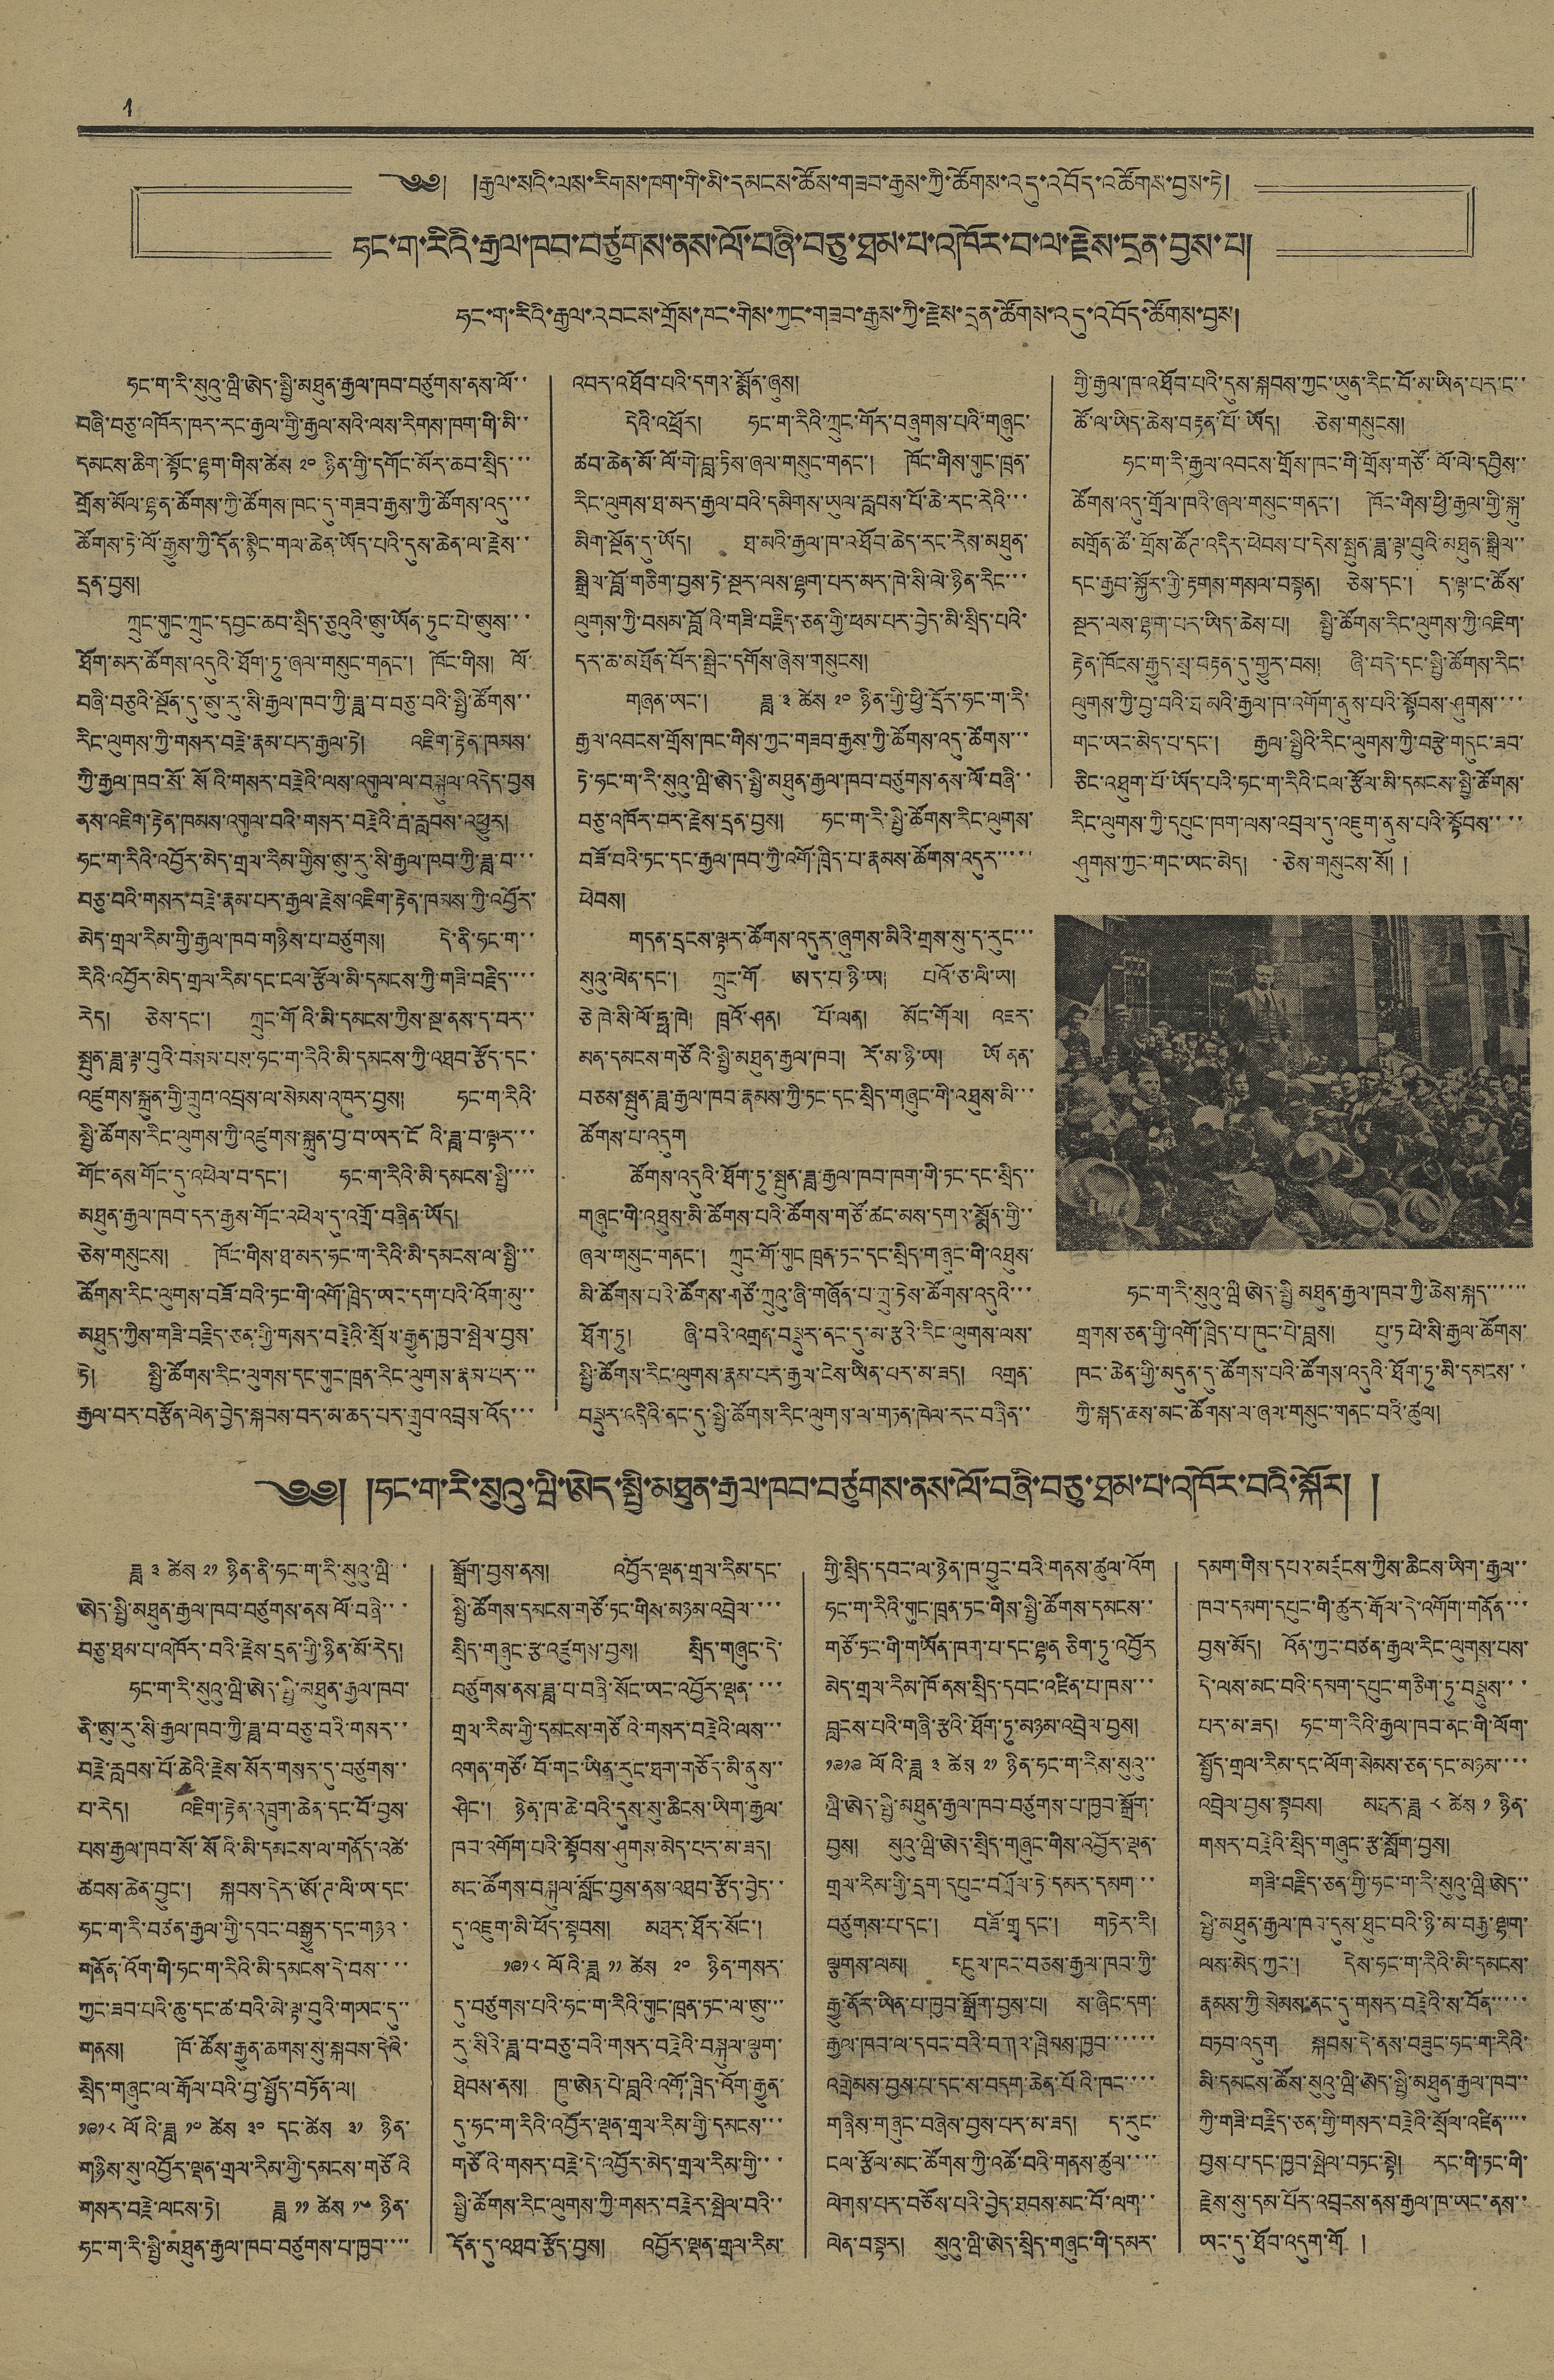4
༄༅། །རྒྱལ་སའི་ལས་རིགས་ཁག་གི་མི་དམངས་ཚོས་གཟབ་རྒྱས་ཀྱི་ཚོགས་འདུ་འབོད་འཚོགས་བྱས་ཏེ།
ཧང་ག་རིའི་རྒྱལ་ཁབ་བཙུགས་ནས་ལོ་བཞི་བཅུ་ཐམ་པ་འཁོར་བ་ལ་རྗེས་དྲན་བྱས་པ།
ཧང་ག་རིའི་རྒྱལ་འབངས་གྲོས་ཁང་གིས་ཀྱང་གཟབ་རྒྱས་ཀྱི་རྗེས་དྲན་ཚོགས་འདུ་འབོད་ཚོགས་བྱས།
ཧང་ག་རི་སུའུ་ཝི་ཨེད་སྤྱི་མཐུན་རྒྱལ་ཁབ་བཙུགས་ནས་ལོ་་
བཞི་བཅུ་འཁོར་ཁར་རང་རྒྱལ་གྱི་རྒྱལ་སའི་ལས་རིགས་ཁག་གི་མི་་
དམངས་ཆིག་སྟོང་ལྷག་གིས་ཚེས ༢༠ ཉིན་གྱི་དགོང་མོར་ཆབ་སྲིད་་་
གྲོས་མོལ་ལྷན་ཚོགས་ཀྱི་ཚོགས་ཁང་དུ་གཟབ་རྒྱས་ཀྱི་ཚོགས་འདུ་་་
ཚོགས་ཏེ་ལོ་རྒྱུས་ཀྱི་དོན་སྙིང་གལ་ཆེན་ཡོད་པའི་དུས་ཆེན་ལ་རྗེས་་
དྲན་བྱས།
ཀྲུང་གུང་ཀྲུང་དབྱང་ཆབ་སྲིད་ཅུའུའི་ཨུ་ཡོན་ཏུང་པེ་ཨུས་་་
ཐོག་མར་ཚོགས་འདུའི་ཐོག་ཏུ་ཞལ་གསུང་གནང་། ཁོང་གིས། ལོ་
བཞི་བཅུའི་སྔོན་དུ་ཨུ་རུ་སི་རྒྱལ་ཁབ་ཀྱི་ཟླ་བ་བཅུ་བའི་སྤྱི་ཚོགས་་
རིང་ལུགས་ཀྱི་གསར་བརྗེ་རྣམ་པར་རྒྱལ་ཏེ། འཇིག་རྟེན་ཁམས་
ཀྱི་རྒྱལ་ཁབ་སོ་སོའི་གསར་བརྗེའི་ལས་འགུལ་ལ་བསྐུལ་འདེད་བས
ནས་འཇིག་རྟེན་ཁམས་འགུལ་བའི་གསར་བརྗེའི་རྦ་རླབས་འཕྱུར།
ཧང་ག་རིའི་འབྱོར་མེད་གྲལ་རིམ་གྱིས་ཨུ་རུ་སི་རྒྱལ་ཁབ་ཀྱི་ཟླ་བ་་་
བཅུ་བའི་གསར་བརྗེ་རྣམ་པར་རྒྱལ་རྗེས་འཇིག་རྟེན་ཁམས་ཀྱི་འབྱོར་
མེད་གྲལ་རིམ་གྱི་རྒྱལ་ཁབ་གཉིས་པ་བཙུགས། དེ་ནི་ཧང་ག་་
རིའི་འབྱོར་མེད་གྲལ་རིམ་དང་ངལ་རྩོལ་མི་དམངས་ཀྱི་གཟི་བརྗིད་་་་
རེད། ཅེས་དང་། ཀྲུང་གོའི་མི་དམངས་ཀྱིས་སྔ་ནས་ད་བར་་
སྤུན་ཟླ་ལྟ་བུའི་བསམ་པས་ཧང་ག་རིའི་མི་དམངས་ཀྱི་འཐབ་རྩོད་དང་
འཛུགས་སྐྲུན་གྱི་གྲུབ་འབྲས་ལ་སེམས་འཁུར་བྱས། ཧང་ག་རིའི་
སྤྱི་ཚོགས་རིང་ལུགས་ཀྱི་འཛུགས་སྐྲུན་བྱ་བ་ཡར་ངོའི་ཟླ་བ་ལྟར་་་
གོང་ནས་གོང་དུ་འཕེལ་བ་དང་། ཧང་ག་རིའི་མི་དམངས་སྤྱི་་་་
མཐུན་རྒྱལ་ཁབ་དར་རྒྱས་གོང་འཕེལ་དུ་འགྲོ་བཞིན་ཡོད།
ཅེས་གསུངས། ཁོང་གིས་ཐ་མར་ཧང་ག་རིའི་མི་དམངས་ལ་སྤྱི་་་
ཚོགས་རིང་ལུགས་བཟོ་བའི་ཏང་གི་འགོ་ཁྲིད་ཡང་དག་པའི་འོག་མུ་་
མཐུད་ཀྱིས་གཟི་བརྗིད་ཅན་གྱི་གསར་བརྗེའི་སྲོལ་རྒྱུན་ཁྱབ་སྤེལ་བྱས་
ཏེ། སྤྱི་ཚོགས་རིང་ལུགས་དང་གུང་ཁྲན་རིང་ལུགས་རྣམ་པར་་
རྒྱལ་བར་བརྩོན་ལེན་བྱད་སྐབས་བར་མ་ཆད་པར་གྲུབ་འབྲས་འོད་་་
འབར་འཐོབ་པའི་དགའ་སྨོན་ཞུས།
དེའི་འཕྲོར། ཧང་ག་རིའི་ཀྲུང་གོར་བཞུགས་པའི་གཞུང་
ཚབ་ཆེན་མོ་ལོ་གེ་བླ་ཏིས་ཞལ་གསུང་གནང་། ཁོང་གིས་གུང་ཁྲན་
རིང་ལུགས་ཐ་མར་རྒྱལ་བའི་དམིགས་ཡུལ་རླབས་པོ་ཆེ་རང་རེའི་་་
མིག་སྔོན་དུ་ཡོད། ཐ་མའི་རྒྱལ་ཁ་འཐོབ་ཆེད་རང་རེས་མཐུན་
སྒྲིལ་བློ་གཅིག་བྱས་ཏེ་སྔར་ལས་ལྷག་པར་མར་ཁེ་སི་ལེ་ཉིན་རིང་་་
ལུགས་ཀྱི་བསམ་བློའི་གཟི་བརྗིད་ཅན་གྱི་ཕམ་པར་བྱེད་མི་སྲིད་པའི་
དར་ཆ་མཐོན་པོར་སྒྲེང་དགོས་ཞེས་གསུངས།
གཞན་ཡང་། ཟླ ༣ ཚེས ༡༠ ཉིན་གྱི་ཕྱི་དྲོར་ཧང་ག་རི་
རྒྱལ་འབངས་གྲོས་ཁང་གིས་ཀྱང་གཟབ་རྒྱས་ཀྱི་ཚོགས་འདུ་ཚོགས་་་
ཏེ་ཧང་ག་རི་སུའུ་ཝི་ཨེད་སྤྱི་མཐུན་རྒྱལ་ཁབ་བཙུགས་ནས་ལོ་བཞི་་
བཅུ་འཁོར་བར་རྗེས་དྲན་བྱས། ཧང་ག་རི་སྤྱི་ཚོགས་རིང་ལུགས་
བཟོ་བའི་ཏང་དང་རྒྱལ་ཁབ་ཀྱི་འགོ་ཁྲིད་པ་རྣམས་ཚོགས་འདུར་་་་་
ཕེབས།
གདན་དྲངས་ལྟར་ཚོགས་འདུར་ཞུགས་མིའི་གྲས་སུ་ད་རུང་་་
སུའུ་ལེན་དང་། ཀྲུང་གོ ཨར་པ་ཉི་ཡ། པའོ་ཅ་ལི་ཡ།
ཅེ ཁེ་སི་ལོ་ཧྥ་ཁེ། ཁྲའོ་ཤན། པོ་ལན། མོང་གོལ། འཇར་
མན་དམངས་གཙོའི་སྤྱི་མཐུན་རྒྱལ་ཁབ། རོ་མ་ཉི་ཡ། ཡོ ནན་
བཅས་སྤུན་ཟླ་རྒྱལ་ཁབ་རྣམས་ཀྱི་ཏང་དང་སྲིད་གཞུང་གི་འཐུས་མི་་་
ཚོགས་པ་འདུག
ཚོགས་འདུའི་ཐོག་ཏུ་སྤུན་ཟླ་རྒྱལ་ཁབ་ཁག་གི་ཏང་དང་སྲིད་་
གཞུང་གི་འཐུས་མི་ཚོགས་པའི་ཚོགས་གཙོ་ཚང་མས་དགའ་སྨོན་གྱི་་
ཞལ་གསུང་གནང་། ཀྲུང་གོ་གུང ཁྲན་ཏང་དང་སྲིད་གཞུང་གི་འཐུས་
མི་ཚོགས་པའི་ཚོགས་གཙོ་ཀྲུའུ་ཞི་གཞོན་པ་ཀྲུ་ཏེས་ཚོགས་འདུའི་་་
ཐོག་ཏུ། ཞི་བའི་འགྲན་བསྡུར་ནང་དུ་མ་རྩའི་རིང་ལུགས་ལས་
སྤྱི་ཚོགས་རིང་ལུགས་རྣམ་པར་རྒྱལ་ངེས་ཡིན་པར་མ་ཟད། འགྲན་
བསྡུར་འདིའི་ནང་དུ་སྤྱི་ཚོགས་རིང་ལུགས་ལ་གཏན་ཁེལ་རང་བཞིན་་
གྱི་རྒྱལ་ཁ་འཐོབ་པའི་དུས་སྐབས་ཀྱང་ཡུན་རིང་བོ་མ་ཡིན་པར་ང་་
ཚོ་ལ་ཡིད་ཆེས་བརྟན་པོ་ཡོད། ཅེས་གསུངས།
ཧང་ག་རི་རྒྱལ་འབངས་གྲོས་ཁང་གི་གྲོས་གཙོ་ལོ་ལེ་དབྱིས་་
ཚོགས་འདུ་གྲོལ་ཁའི་ཞལ་གསུང་གནང་། ཁོང་གིས་ཕྱི་རྒྱལ་གྱི་སྐུ་
མགྲོན་ཚོ་གྲོས་ཚོཊ་འདིར་ཕེབས་པ་དེས་སྤུན་ཟླ་ལྟ་བུའི་མཐུན་སྒྲིལ་་
དང་རྒྱལ་སྐྱོར་གྱི་རྟགས་གསལ་བསྟན། ཅེས་དང་། ད་ལྟ་ང་ཚོས་
སྔར་ལས་ལྷག་པར་ཡིད་ཆེས་པ། སྤྱི་ཚོགས་རིང་ལུགས་ཀྱི་འཇིག་
རྟེན་ཁོངས་རྒྱུད་སྲ་བརྟན་དུ་གྱུར་བས། ཞི་བདེ་དང་སྤྱི་ཚོགས་རིང་
ལུགས་ཀྱི་བྱ་བའི་ཐ་མའི་རྒྱལ་ཁ་འགོག་ནུས་པའི་སྟོབས་ཤུགས་་་་
གང་ཡང་མེད་པ་དང་། རྒྱལ་སྤྱིའི་རིང་ལུགས་ཀྱི་བརྩེ་གདུང་ཟབ་
ཅིང་འཐུག་པོ་ཡོད་པའི་ཧང་ག་རིའི་ངལ་རྩོལ་མི་དམངས་སྤྱི་ཚོགས་
རིང་ལུགས་ཀྱི་དཔུང་ཁག་ལས་འབྲལ་དུ་འཇུག་ནུས་པའི་སྟོབས་་་་
ཤུགས་ཀྱང་གང་ཡང་མེད། ཅེས་གསུངས་སོ། །
ཧང་ག་རི་སུའུ་ཝི ཨེད་སྤྱི་མཐུན་རྒྱལ་ཁབ་ཀྱི་ཆེས་སྐད་་་་་་
གྲགས་ཅན་གྱི་འགོ་ཁྲིད་པ་ཁུང་པེ་བླས། པུ་ཏ་ཕེ་སི་རྒྱལ་ཚོགས་
ཁང་ཆེན་གྱི་མདུན་དུ་ཚོགས་པའི་ཚོགས་འདུའི་ཐོག་ཏུ་མི་དམངས་་
ཀྱི་སྐད་ཆས་མང་ཚོགས་ལ་ཞལ་གསུང་གནང་བའི་ཚུལ།
༄༅། །ཧང་ག་རི་སུའུ་ཝི་ཨེད་སྤྱི་མཐུན་རྒྱལ་ཁབ་བཙུགས་ནས་ལོ་བཞི་བཅུ་ཐམ་པ་འཁོར་བའི་སྐོར། །
ཟླ ༣ ཚེས ༢༡ ཉིན་ནི་ཧང་ག་རི་སུའུ་ཝི་་
ཨེད་སྤྱི་མཐུན་རྒྱལ་ཁབ་བཙུགས་ནས་ལོ་བཞི་་་
བཅུ་ཐམ་པ་འཁོར་བའི་རྗེས་དྲན་གྱི་ཉིན་མོ་རེད།
ཧང་ག་རི་སུའུ་ཝི་ཨེད་སྤྱི་མཐུན་རྒྱལ་ཁབ་
ནི་ཨུ་རུ་སི་རྒྱལ་ཁབ་ཀྱི་ཟླ་བ་བཅུ་བའི་གསར་་
བརྗེ་རླབས་པོ་ཆེའི་རྗེས་སོར་གསར་དུ་བཙུགས་་
པ་རེད། འཇིག་རྟེན་འཁྲུག་ཆེན་དང་བོ་བྱས་
པས་རྒྱལ་ཁབ་སོ་སོའི་མི་དམངས་ལ་གནོད་འཚེ་
ཚབས་ཆེན་བྱུང་། སྐབས་དེར་ཨོ་ཊ་ལི་ཡ་དང་
ཧང་ག་རི་བཙན་རྒྱལ་གྱི་དབང་བསྒྱུར་དང་གཉའ་
གནོན་འོག་གི་ཧང་ག་རིའི་མི་དམངས་དེ་བས་་་་
ཀྱང་ཟབ་པའི་ཆུ་དང་ཚ་བའི་མེ་ལྟ་བུའི་གཡང་དུ་་
གནས། ཁོ་ཚོས་རྒྱུན་ཆགས་སུ་སྐབས་དེའི་
སྲིད་གཞུང་ལ་རྒོལ་བའི་བྱ་སྤྱོད་བཏོན་ལ།
༡༩༡༨ ལོའི་ཟླ ༡༠ ཚེས ༣༠ དང་ཚེས ༣༡ ཉིན་
གཉིས་སུ་འབྱོར་ལྡན་གྲ་རིམ་གྱི་དམངས་གཙོའི་
གསར་བརྗེ་ལངས་ཏེ། ཟླ ༡༡ ཚེས ༡༦ ཉིན་
ཧང་ག་རི་སྤྱི་མཐུན་རྒྱལ་ཁབ་བཙུགས་པ་ཁྱབ་་་་
སྒྲོག་བྱས་ནས། འབྱོར་ལྡན་གྲལ་རིམ་དང་
སྤྱི་ཚོགས་དམངས་གཙོ་ཏང་གིས་མཉམ་འབྲེལ་་་་
སྲིད་གཞུང་རྩ་འཛུགས་བྱས། སྲིད་གཞུང་དེ་
བཙུགས་ནས་ཟླ་བ་བཞི་སོང་ཡང་འབྱོར་ལྡན་་་་
གྲལ་རིམ་གྱི་དམངས་གཙོའི་གསར་བརྗེའི་ལས་་་
འགན་གཙོ་བོ་གང་ཡིན་རུང་ཐག་གཅོད་མི་ནུས་་
ཤིང་། ཉེན་ཁ་ཆེ་བའི་དུས་སུ་ཆིངས་ཡིག་རྒྱལ་
ཁབ་འགོག་པའི་སྟོབས་ཤུགས་མེད་པར་མ་ཟད།
མང་ཚོགས་བསྐུལ་སློང་བྱས་ནས་འཐབ་རྩོད་བྱེད་་
དུ་འཇུག་མི་ཕོད་སྟབས། མཐར་ཐོར་སོང་།
༡༩༡༨ ལོའི་ཟླ ༡༡ ཚེས ༡༠ ཉིན་གསར་
དུ་བཙུགས་པའི་ཧང་ག་རིའི་གུང་ཁྲན་ཏང་ལ་ཨུ་་་
རུ་སིའི་ཟླ་བ་བཅུ་བའི་གསར་བརྗེའི་བསྐུལ་ལྕག་
ཐེབས་ནས། ཁུ་ཨེན་པེ་བླའི་འགོ་ཁྲིད་འོག་རྒྱུན་
དུ་ཧང་ག་རིའི་འབྱོར་ལྡན་གྲལ་རིམ་གྱི་དམངས་་་
གཙོའི་གསར་བརྗེ་དེ་འབྱོར་མེད་གྲལ་རིམ་གྱི་་་
སྤྱི་ཚོགས་རིང་ལུགས་ཀྱི་གསར་བརྗེར་སྤེལ་བའི་་
དོན་དུ་འཐབ་རྩོད་བྱས། འབྱོར་ལྡན་གྲལ་རིམ་
གྱི་སྲིད་དབང་ལ་ཉེན་ཁ་བྱུང་བའི་གནས་ཚུལ་འོག
ཧང་ག་རིའི་གུང་ཁྲན་ཏང་གིས་སྤྱི་ཚོགས་དམངས་་
གཙོ་ཏང་གི་གཡོན་ཁག་པ་དང་ལྷན་ཅིག་ཏུ་འབྱོར
མེད་གྲལ་རིམ་ཁོ་ནས་སྲིད་དབང་འཛིན་པ་ཁས་་་
བླངས་པའི་གཞི་རྩའི་ཐོག་ཏུ་མཉམ་འབྲེལ་བྱས།
༡༩༡༩ ལོའི་ཟླ ༣ ཚེས ༢༡ ཉིན་ཧང་ག་རིས་སུའུ་་
ཝི་ཨེད་སྤྱི་མཐུན་རྒྱལ་ཁབ་བཙུགས་པ་ཁྱབ་སྒྲོག་
བྱས། སུའུ་ཝི་ཨེད་སྲིད་གཞུང་གིས་འབྱོར་ལྡན་
གྲལ་རིམ་གྱི་དྲག་དཔུང་བགྲོལ་ཏེ་དམར་དམག་་
བཙུགས་པ་དང་། བཟོ་གྲྭ་དང་། གཏེར་རི།
ལྕགས་ལམ། དངུལ་ཁང་བཅས་རྒྱལ་ཁབ་ཀྱི་
རྒྱུ་ནོར་ཡིན་པ་ཁྱབ་སྒྲོག་བྱས་པ། ས་ཞིང་དག་
རྒྱལ་ཁབ་ལ་དབང་བའི་བཀའ་ཁྲིམས་ཁྱབ་་་་་་
འགྲེམས་བྱས་པ་དང་ས་བདག་ཆེན་པོའི་ཁང་་་་
གཞིས་གཞུང་བཞེས་བྱས་པར་མ་ཟད། ད་རུང་
ངལ་རྩོལ་མང་ཚོགས་ཀྱི་འཚོ་བའི་གནས་ཚུལ་་་་
ལེགས་པར་བཅོས་པའི་བྱེད་ཐབས་མང་བོ་ལག་་
ལེན་བསྟར། སུའུ་ཝི་ཨེད་སྲིད་གཞུང་གི་དམར་
དམག་གིས་དཔའ་མཛངས་ཀྱིས་ཆིངས་ཡིག་རྒྱལ་་
ཁབ་དམག་དཔུང་གི་ཚུར་རྒོལ་དེ་འགོག་གནོན་་་
བྱས་མོད། འོན་ཀྱང་བཙན་རྒྱལ་རིང་ལུགས་པས་
དེ་ལས་མང་བའི་དམག་དཔུང་གཅིག་ཏུ་བསྡུས་་་
པར་མ་ཟད། ཧང་ག་རིའི་རྒྱལ་ཁབ་ནང་གི་ལོག་
སྤྱོད་གྲལ་རིམ་དང་ལོག་སེམས་ཅན་དང་མཉམ་་་་
འབྲེལ་བྱས་སྟབས། མཐར་ཟླ ༨ ཚེས ༡ ཉིན་
གསར་བརྗེའི་སྲིད་གཞུང་རྩ་སློག་བྱས།
གཟི་བརྗིད་ཅན་གྱི་ཧང་ག་རི་སུའུ་ཝི་ཨེད་་
སྤྱི་མཐུན་རྒྱལ་ཁབ་དུས་ཐུང་བའི་ཉི་མ་བརྒྱ་ལྷག་
ལས་མེད་ཀྱང་། དེས་ཧང་ག་རིའི་མི་དམངས་
རྣམས་ཀྱི སེམས་ནང་དུ་གསར་བརྗེའི་ས་བོན་་་་་
བཏབ་འདུག སྐབས་དེ་ནས་བཟུང་ཧང་ག་རིའི་
མི་དམངས་ཚོས་སུའུ་ཝི་ཨེད་སྤྱི་མཐུན་རྒྱལ་ཁབ་་
ཀྱི་གཟི་བརྗིད་ཅན་གྱི་གསར་བརྗེའི་སྲོལ་འཛིན་་་་
བྱས་པ་དང་ཁྱབ་སྤེལ་བཏང་སྟེ། རང་གི་ཏང་གི་
རྗེས་སུ་དམ་པོར་འབྲངས་ནས་རྒྱལ་ཁ་ཡང་ནས་་
ཡང་དུ་ཐོབ་འདུག་གོ །
